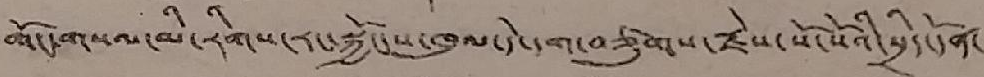གོང་གསལ་མི་རིགས་རང་སྐྱོང་ས་ཁུལ་དེ་དག་བཙུགས་རྗེས་སོ་སོའི་སྲིད་དོན་
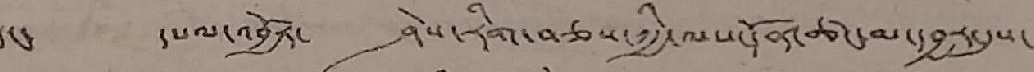དང་ དཔལ་འབྱོར་ ཤེས་རིག་བཅས་ཀྱི་ལས་དོན་ཚང་མ་དབྱར་དུས་
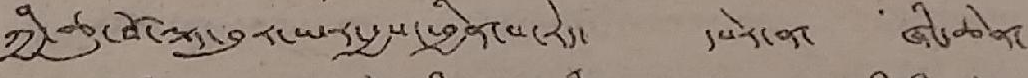ཀྱི་ཆུ་བོ་ལྟ་བུར་ཡར་རྒྱས་ཕྱིན་པ་རེད་ དཔེར་ན་ ཞིང་ཆེན་
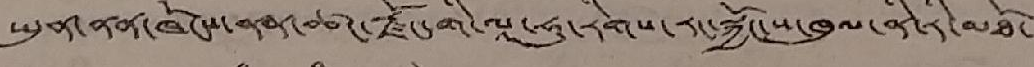ཡུན་ནན་ཁོངས་ནན་ཚང་རྫོང་གི་ལ་ཧུ་རིགས་རང་སྐྱོང་ས་ཁུལ་ནི་རི་མཐོ་
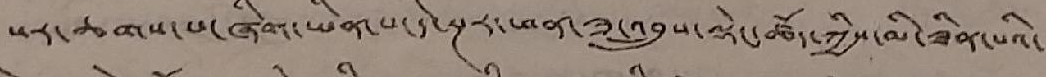སར་ཆགས་པ་ཞིག་ཡིན་པ་དེ་སྔར་ཕན་ཟ་འབྲུས་ལྡེང་ཚོད་ཀྱིས་མི་ཟིན་པའི་
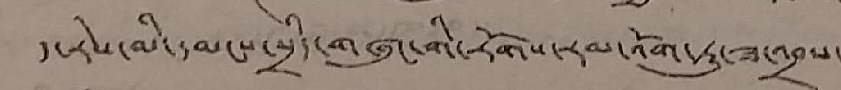ད་རེས་མི་དམངས་སྲིད་གཞུང་གི་རོགས་རམ་འོག་ཏུ་ཟ་འབྲས་
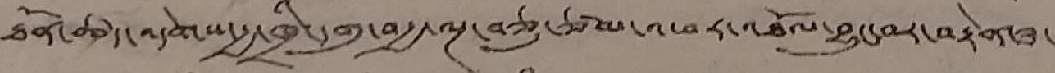ཐོན་ཚད་འདེགས་རྒྱ་ཁྲི་དགུ་བརྒྱ་ལྔ་བཅུ་ཙམ་འཕར་འཐོལ་བྱུང་བར་བརྟེན་ཟ་
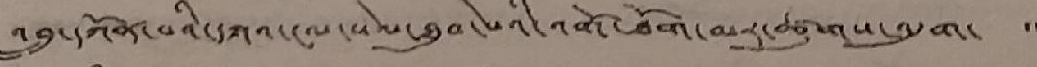འབྲུ་དཀོན་པའི་དཀའ་ངལ་སེལ་ཐུབ་པའི་འགོ་ཐོག་མར་ཚུགས་འདུག་ ་་
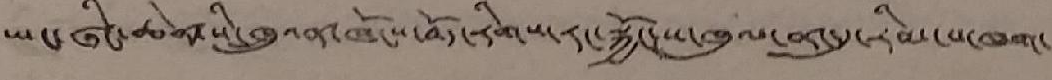ཡང་ཞིང་ཆེན་སི་ཀྲུའན་ཁོངས་བོད་རིགས་རང་སྐྱོང་ས་ཁུལ་ནང་དུ་རིམ་པ་ཁག་
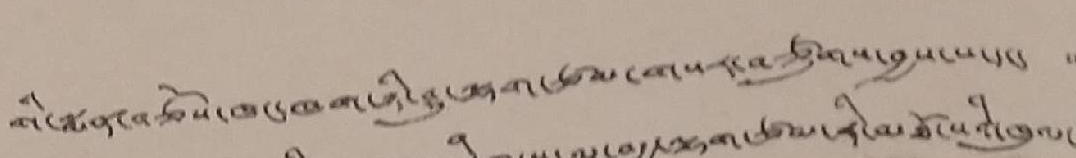གི་སྨན་བཅོས་ཁང་ཁག་ཉི་ཤུ་ལྷག་ཙམ་གསར་བཙུགས་བྱས་པ་དང་ ་་
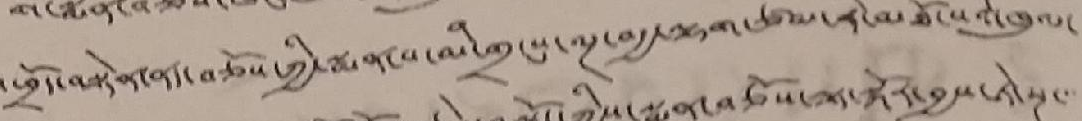འཕྲོད་བསྟེན་ནད་བཅོས་ཀྱི་སྨན་པ་མི་གྲངས་ལྔ་བརྒྱ་ལྷག་ཙམ་རི་མཐོ་སའི་ཁུལ་
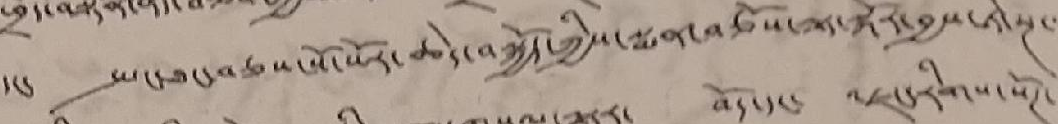དང་ སྤང་ཐང་བཅས་སོ་སོར་ཆེད་བསྐྱོད་ཀྱིས་སྨན་བཅོས་ལྟ་སྐོར་བྱས་ཏེ་སྔ་་
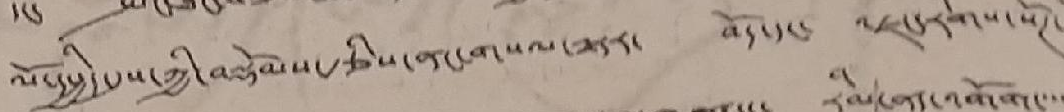ལོ་དཔྱིད་དུས་ཀྱི་བལྡོམས་རྩིས་ནང་གསལ་ལྟར་ བོད་དང་ འཇང་རིགས་སོཊ་
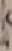ས་
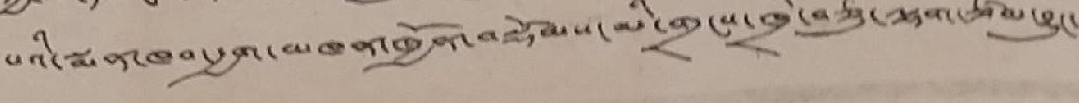པའི་སྨན་ཁབ་རྒྱག་མཁན་ཁྱོན་བསྡོམས་མི་གྲངས་ཁྲི་བཅུ་ལྷག་ཙམ་བྱུང་
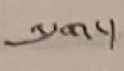འདུག་།
